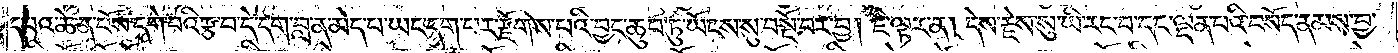དཔའ་ཆེན་པོས་དགེ་བའི་རྩ་བ་དེ་དག་བླ་ན་མེད་པ་ཡང་དག་པར་རྫོགས་པའི་བྱང་ཆུབ་ཏུ་ཡོངས་སུ་བསྔོ་བར་བྱ། ཇི་ལྟར་ན། དེས་རྗེས་སུ་ཡི་རང་བ་དང་ལྡན་པའི་བསོད་ནམས་བྱ་
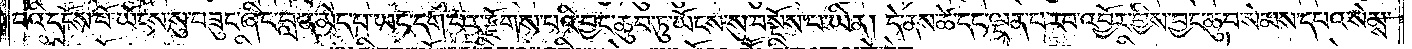བའི་དངོས་པོ་ཡོངས་སུ་བཟུང་ཞིང་བླ་ན་མེད་པ་ཡང་དག་པར་རྫོགས་པའི་བྱང་ཆུབ་ཏུ་ཡོངས་སུ་བསྔོས་པ་ཡིན། དེ་ནས་ཚེ་དང་ལྡན་པ་རབ་འབྱོར་གྱིས་བྱང་ཆུབ་སེམས་དཔའ་སེམས་
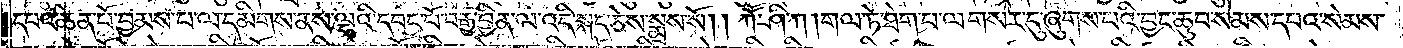དཔའ་ཆེན་པོ་བྱམས་པ་ལ་དམིགས་ནས་ལྷའི་དབང་པོ་བརྒྱ་བྱིན་ལ་འདི་སྐད་ཅེས་སྨྲས་སོ། །ཀཽ་ཤི་ཀ། གལ་ཏེ་ཐེག་པ་ལ་གསར་དུ་ཞུགས་པའི་བྱང་ཆུབ་སེམས་དཔའ་སེམས་
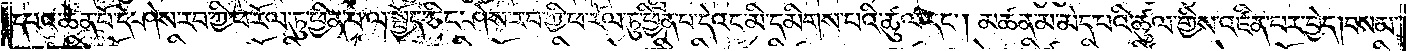དཔའ་ཆེན་པོ་དེ་ཤེས་རབ་ཀྱི་ཕ་རོལ་ཏུ་ཕྱིན་པ་ལ་སྤྱོད་ཅིང་ཤེས་རབ་ཀྱི་ཕ་རོལ་ཏུ་ཕྱིན་པ་དེའང་མི་དམིགས་པའི་ཚུལ་དང༌། མཚན་མ་མེད་པའི་ཚུལ་གྱིས་འཛིན་པར་བྱེད། བསམ་
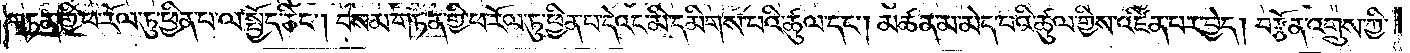གཏན་གྱི་ཕ་རོལ་ཏུ་ཕྱིན་པ་ལ་སྤྱོད་ཅིང༌། བསམ་གཏན་གྱི་ཕ་རོལ་ཏུ་ཕྱིན་པ་དེའང་མི་དམིགས་པའི་ཚུལ་དང༌། མཚན་མ་མེད་པའི་ཚུལ་གྱིས་འཛིན་པར་བྱེད། བརྩོན་འགྲུས་ཀྱི་
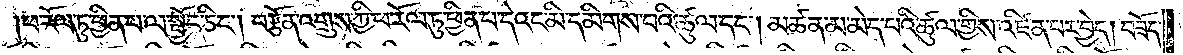ཕ་རོལ་ཏུ་ཕྱིན་པ་ལ་སྤྱོད་ཅིང༌། བརྩོན་འགྲུས་ཀྱི་ཕ་རོལ་ཏུ་ཕྱིན་པ་དེའང་མི་དམིགས་པའི་ཚུལ་དང༌། མཚན་མ་མེད་པའི་ཚུལ་གྱིས་འཛིན་པར་བྱེད། བཟོད་
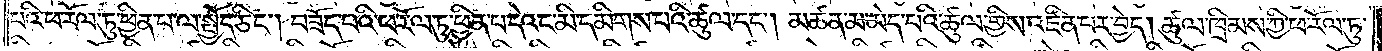པའི་ཕ་རོལ་ཏུ་ཕྱིན་པ་ལ་སྤྱོད་ཅིང༌། བཟོད་པའི་ཕ་རོལ་ཏུ་ཕྱིན་པ་དེའང་མི་དམིགས་པའི་ཚུལ་དང༌། མཚན་མ་མེད་པའི་ཚུལ་གྱིས་འཛིན་པར་བྱེད། ཚུལ་ཁྲིམས་ཀྱི་ཕ་རོལ་ཏུ་
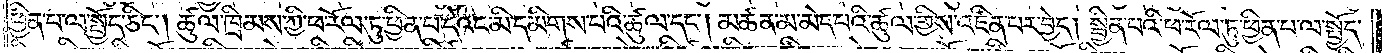ཕྱིན་པ་ལ་སྤྱོད་ཅིང༌། ཚུལ་ཁྲིམས་ཀྱི་ཕ་རོལ་ཏུ་ཕྱིན་པ་དེའང་མི་དམིགས་པའི་ཚུལ་དང༌། མཚན་མ་མེད་པའི་ཚུལ་གྱིས་འཛིན་པར་བྱེད། སྦྱིན་པའི་ཕ་རོལ་ཏུ་ཕྱིན་པ་ལ་སྤྱོད་
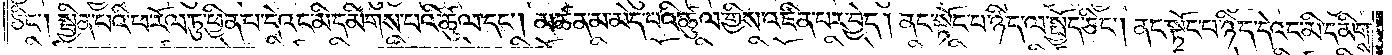ཅིང༌། སྦྱིན་པའི་ཕ་རོལ་ཏུ་ཕྱིན་པ་དེའང་མི་དམིགས་པའི་ཚུལ་དང༌། མཚན་མ་མེད་པའི་ཚུལ་གྱིས་འཛིན་པར་བྱེད། ནང་སྟོང་པ་ཉིད་ལ་སྤྱོད་ཅིང༌། ནང་སྟོང་པ་ཉིད་དེའང་མི་དམིགས་
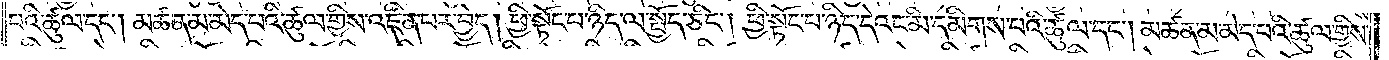པའི་ཚུལ་དང༌། མཚན་མ་མེད་པའི་ཚུལ་གྱིས་འཛིན་པར་བྱེད། ཕྱི་སྟོང་པ་ཉིད་ལ་སྤྱོད་ཅིང༌། ཕྱི་སྟོང་པ་ཉིད་དེའི་མི་དམིགས་པའི་ཚུལ་དང༌། མཚན་མ་མེད་པའི་ཚུལ་གྱིས་
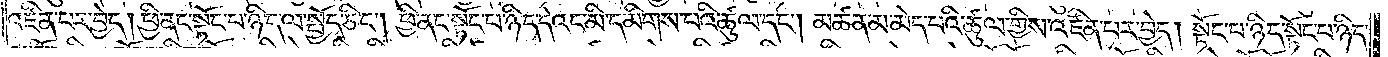འཛིན་པར་བྱེད། ཕྱི་ནང་སྟོང་པ་ཉིད་ལ་སྤྱོད་ཅིང༌། ཕྱི་ནང་སྟོང་པ་ཉིད་དེའང་མི་དམིགས་པའི་ཚུལ་དང༌། མཚན་མ་མེད་པའི་ཚུལ་གྱིས་འཛིན་པར་བྱེད། སྟོང་པ་ཉིད་སྟོང་པ་ཉིད་
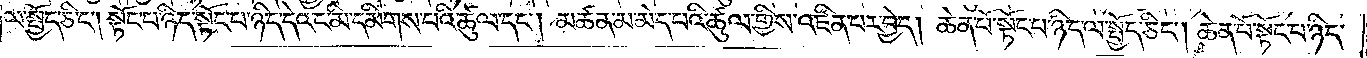ལ་སྤྱོད་ཅིང༌། སྟོང་པ་ཉིད་སྟོང་པ་ཉིད་དེའང་མི་དམིགས་པའི་ཚུལ་དང༌། མཚན་མ་མེད་པའི་ཚུལ་གྱིས་འཛིན་པར་བྱེད། ཆེན་པོ་སྟོང་པ་ཉིད་ལ་སྤྱོད་ཅིང༌། ཆེན་པོ་སྟོང་པ་ཉིད་
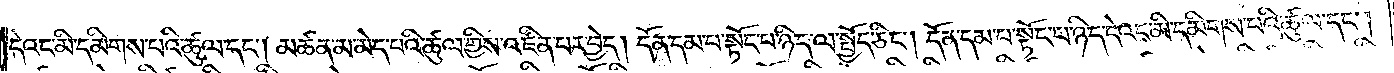དེའང་མི་དམིགས་པའི་ཚུལ་དང༌། མཚན་མ་མེད་པའི་ཚུལ་གྱིས་འཛིན་པར་བྱེད། དོན་དམ་པ་སྟོང་པ་ཉིད་ལ་སྤྱོད་ཅིང༌། དོན་དམ་པ་སྟོང་པ་ཉིད་དེའང་མི་དམིགས་པའི་ཚུལ་དང༌།
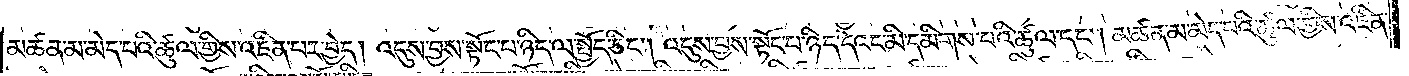མཚན་མ་མེད་པའི་ཚུལ་གྱིས་འཛིན་པར་བྱེད། འདུས་བྱས་སྟོང་པ་ཉིད་ལ་སྤྱོད་ཅིང༌། འདུས་བྱས་སྟོང་པ་ཉིད་དེའང་མི་དམིགས་པའི་ཚུལ་དང༌། མཚན་མ་མེད་པའི་ཚུལ་གྱིས་འཛིན་
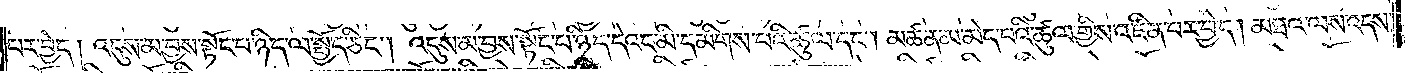པར་བྱེད། འདུས་མ་བྱས་སྟོང་པ་ཉིད་ལ་སྤྱོད་ཅིང༌། འདུས་མ་བྱས་སྟོང་པ་ཉིད་དེའང་མི་དམིགས་པའི་ཚུལ་དང༌། མཚན་མ་མེད་པའི་ཚུལ་གྱིས་འཛིན་པར་བྱེད། མཐའ་ལས་འདས་
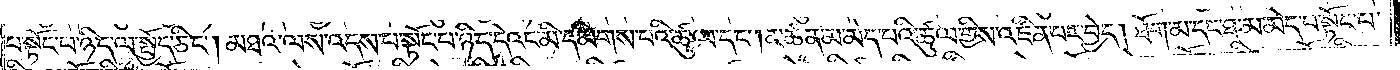པ་སྟོང་པ་ཉིད་ལ་སྤྱོད་ཅིང༌། མཐའ་ལས་འདས་པ་སྟོང་པ་ཉིད་དེའང་མི་དམིགས་པའི་ཚུལ་དང༌། མཚན་མ་མེད་པའི་ཚུལ་གྱིས་འཛིན་པར་བྱེད། ཐོག་མ་དང་ཐ་མ་མེད་པ་སྟོང་པ་
